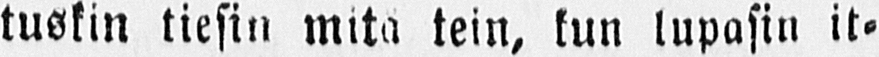tuskin tiesin mitä tein, kun lupasin it-
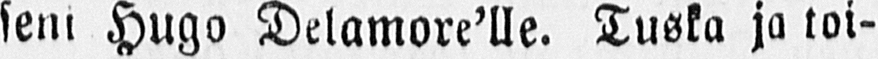seni Hugo Delamore'lle. Tuska ja toi-
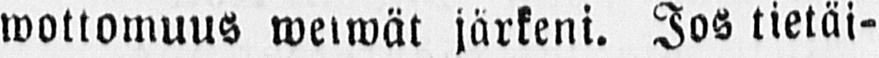wottomuus weiwät järkeni. Jos tietäi-
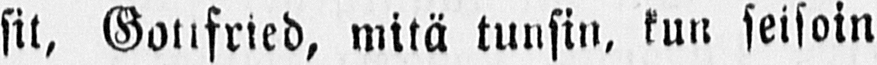sit, Gottfried, mitä tunsin, kun seisoin
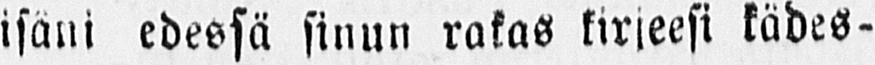isäni edessä sinun rakas kirjeesi kädes-
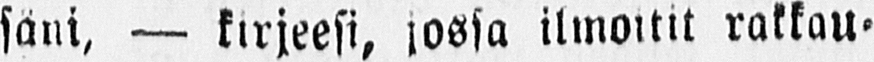säni, — kirjeesi, jossa ilmoitit rakkau-
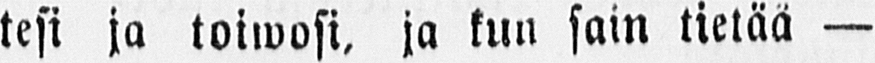tesi ja toiwosi, ja kun sain tietää —
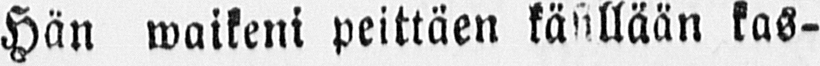Hän waikeni peittäen käellään kas-
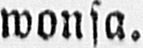wonsa.
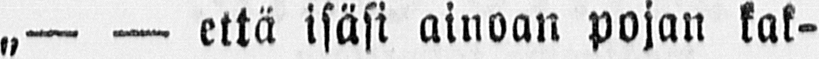„- - että isäsi ainoan pojan kak-
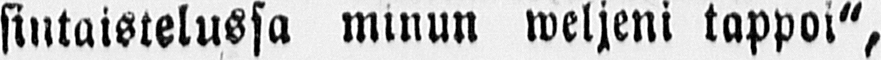sintaistelussa minun weljeni tappoi",
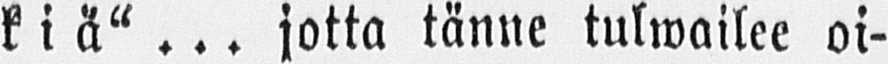kiä" ... jotta tänne tulwailee oi-
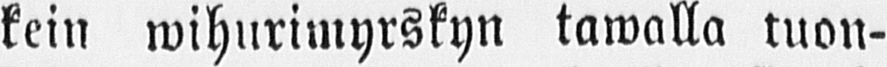kein wihurimyrskyn tawalla tuon-
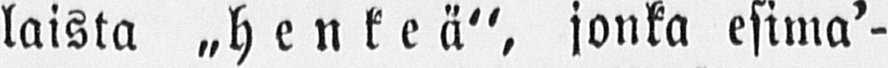laista „henkeä", jonka esima'-
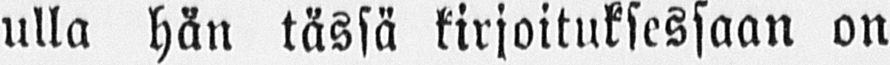ulla hän tässä kirjoituksessaan on
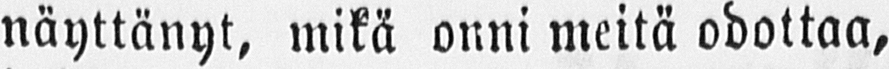näyttänyt, mikä onni meitä odottaa,
